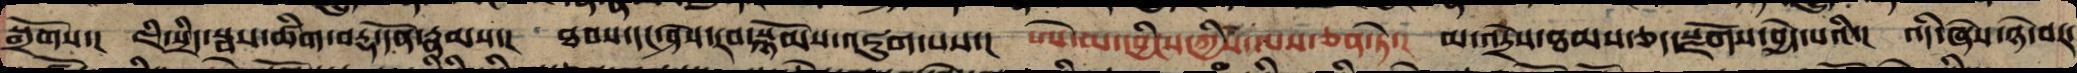སྒྲོགས་། ཇི་སྲིད་སྦས་ཚིག་བརྡ་དོན་རྣམས་། ཐབས་དང་ཤེས་རབ་སྙོམས་འཇུག་པས་། ཨེ་མ་དབྱིངས་ཀྱི་ལས་ཅན་ཏེ་། མ་འདྲེས་ཐམས་ཅད་སྫོགས་བྱེད་པའི་། འདི་ཞེས་ཉེ་བར་
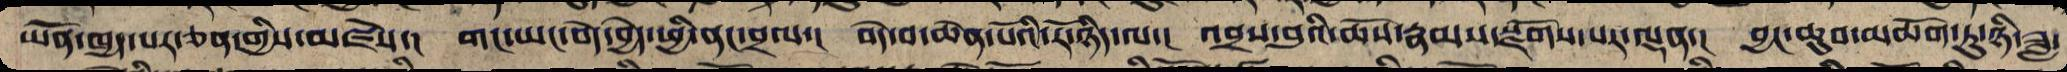ཡོན་ཁྱད་པར་ཅན་གྱིས་མཛེས་། གང་ཡང་བདེ་བྱེད་ཕྱི་ནང་བྲལ་། བདེ་བ་ཆེན་པོའི་རོ་ཉིད་ལ་། འབྲས་བུའི་ཆོས་རྣམས་སྫོགས་པར་ལྡན་། བྱང་ཆུབ་མཆོག་ཏུ་ཉི་ཟླ་
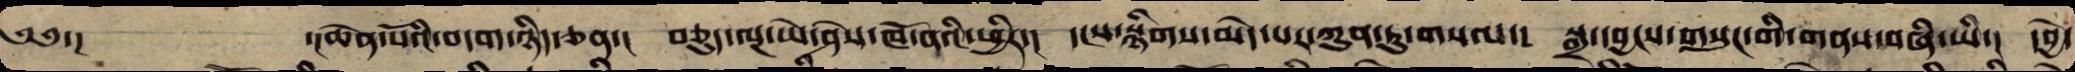༄༅་།         ་།ཆེན་པོའི་བདག་ཉིད་ཅན་། བཅུད་ལྔ་ཡེ་ཤེས་ཁོ་ནའི་ཕྱིར་། དངས་སྙིགས་མེད་པར་ཀུན་ཏུ་གསལ་། སྒྲ་དབྱངས་གསུང་གི་གནས་བཞི་ཡི་། དབྱེ་
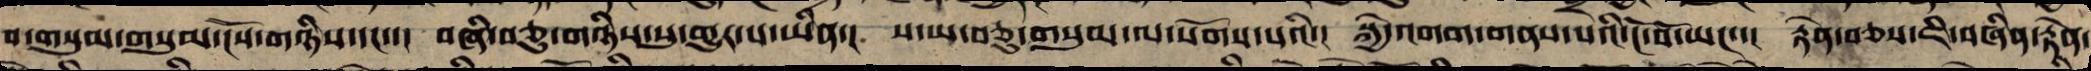བ་གསུམ་གསུམ་ངོས་གཉིས་དང་་། བཞི་བཅུ་གཉིས་སུ་གྱུར་པ་ཡིན། ས་ཡ་བཅུ་གསུམ་ལ་སོགས་པའི་། སྐྱེ་འགག་གནས་པའི་ངོ་བོ་ཡང་་། རྟེན་ཅན་ཇི་བཞིན་རྟེན་
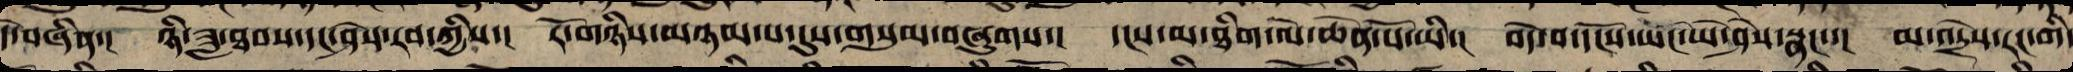དེ་བཞིན་། ཉི་ཟླ་ཐབས་དང་ཤེས་རབ་ཀྱིས་། རོ་གཉིས་མཉམ་པར་དུས་གསུམ་བཞུགས་། དངས་མ་ཐིག་ལེ་ཆེན་པོ་ཡི་། བདེ་བ་དངོས་སྤངས་ཡེ་ཤེས་སྣང་་། མ་འདྲེས་རང་གི་
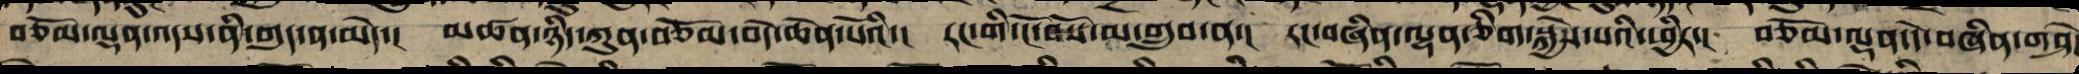བཅོམ་ལྡན་འདས་ནི་གུད་ན་མེད་། མཚན་ཉིད་ཀུན་བཅོམ་བདེ་ཆེན་པོའི་། རང་གི་ངོ་བོས་མ་གྲུབ་ན་། རང་བཞིན་ལྷན་ཅིག་སྐྱེས་པའི་ཕྱིར་། བཅོམ་ལྡན་དེ་བཞིན་གཤེ
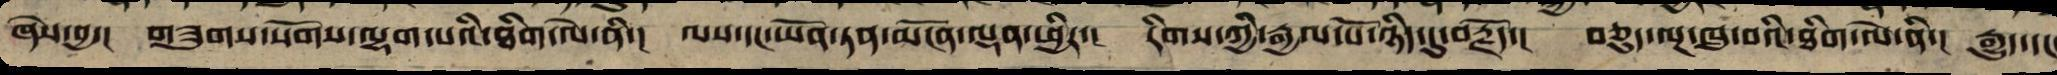ཞེས་བྱ་། གཟུགས་སོགས་ལྷག་པའི་ཐིག་ལེ་ནི་། ལས་དང་ཡོན་ཏན་མངོན་ལྡན་ཕྱིར་། རིགས་ཀྱི་རྒྱལ་པོ་ཉིད་དུ་བརྗོད་། བཅུད་ལྔ་ཁུ་བའི་ཐིག་ལེ་ནི་། རྒྱུད་དང་
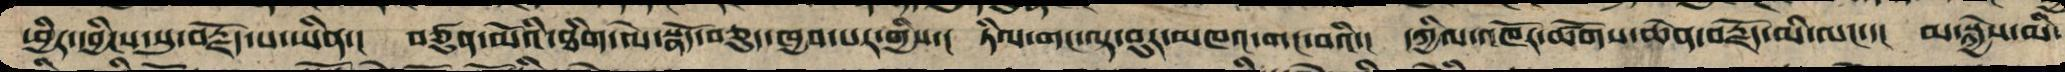ཕྱིར་དབྱིངས་སུ་བརྗོད་པ་ཡིན་། བཙུན་མོའི་ཐིག་ལེ་སྣོད་བཅུད་ཁྱད་པར་གྱིས་། ཏིལ་གང་ལྟ་བུར་མཁའ་གང་བའི་། དཀྱིལ་འཁོར་ཚོགས་ཆེན་བརྗོད་མི་ལངས་། མ་སྐྱེས་མི་
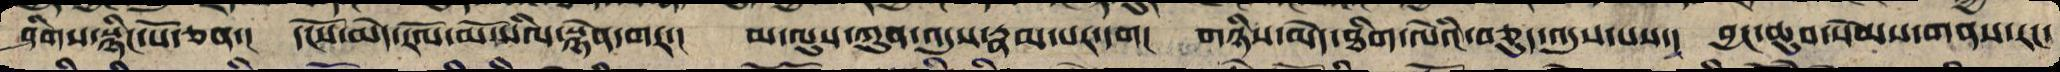ཤིགས་སྙིང་པོ་ཅན་། དངོས་མེད་རོལ་མོ་སིལ་སྙེན་གར་། མ་ལུས་ཀུན་འདུས་རྣམ་པར་དག། གཉིས་མེད་ཐིག་ལེའི་བཅུད་འདུས་པས་། བྱང་ཆུབ་སེམས་གནས་རང་
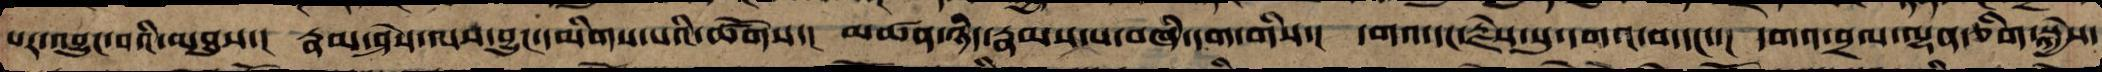པར་འབྱུང་བའི་མཐུས་། རྣམ་ཤེས་ལས་བྱུང་དམིགས་པའི་ཚོགས་། མཚན་ཉིད་རྣམས་པ་བཞི་དག་གིས་། དགའ་དང་རྗེས་སུ་དགའ་བ་དང་་། དགའ་བྲལ་ལྷན་ཅིག་སྐྱེས་
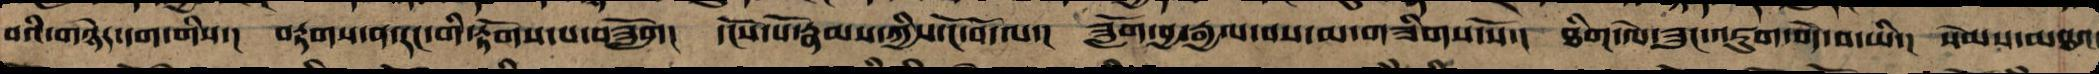བའི་གཉེར་དག་གིས་། བརྟགས་ན་རང་གི་རྟོག་པ་བཟློག། དངོས་པོ་རྣམས་ཀྱི་ངོ་བོ་ལ་། བཟློག་བྱ་རྒྱལ་བས་མ་གཟིགས་སོ་། ཐིག་ལེ་ཟུང་འཇུག་བདེ་བ་ཡི་། སེམས་མཐའ་
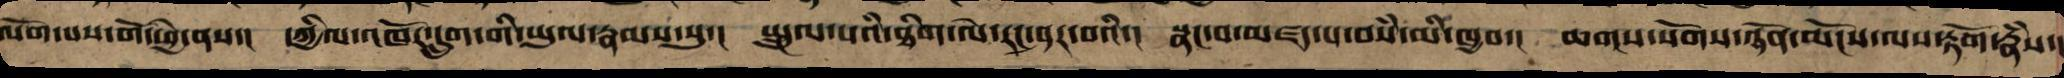ལོག་པས་གོ་ཕྱེ་ནས་། དཀྱིལ་འཁོར་དྲུག་གི་ཡུལ་རྣམས་སུ་། སྤྲུལ་པའི་ཐིག་ལེ་རང་ཤར་བའི་། སྣང་བ་མཛད་པ་བསཾ་མི་ཁྱབ་། ཆགས་སོགས་ཉོན་མོངས་ལས་རྟོག་རྣཾས་།
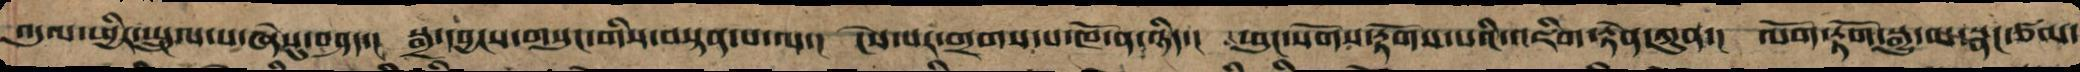འདུལ་ཕྱིར་སྤྲུལ་པ་ཞེསུ་བཤད་། སྒྲ་དབྱངས་གསུང་གིས་བསྟན་པ་ལ་། ངེས་པར་གྲགས་པ་ཁོ་ན་ཉིད་། ཕུང་སོགས་རྟོག་པའི་འཇིག་རྟེན་ཀུན་། ལོག་རྟོག་སྒྱུ་མ་སྣང་ཙམ་
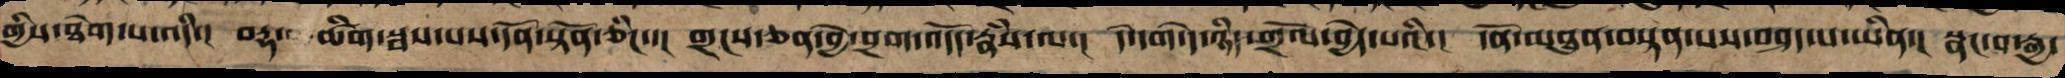གྱིས་ཐེག་པ་འདི་། བརྡ་ཚིག་སྦས་པས་དོན་སྟོན་ཅིང་་། གྲངས་ཅན་བྱེ་བྲག་འདོད་རྣཾས་ལ་། དེ་དག་དེ་ཉིད་གྲོལ་བྱེད་པའི་། དོན་མཐུན་བསྟན་པས་བཤད་པ་ཡིན་། སྣང་བ་རྒྱ་
